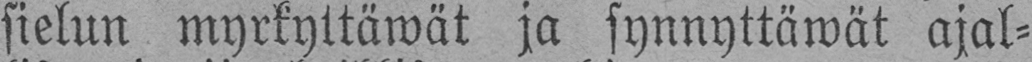sielun myrkyttäwät ja synnyttäwät ajal-
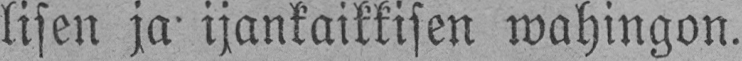lisen ja ijankaikkisen wahingon.
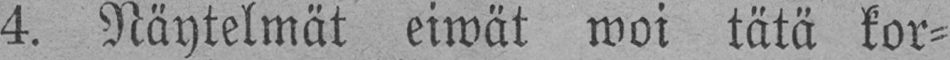4. Näytelmät eiwät woi tätä kor-
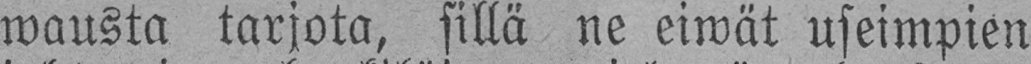wausta tarjota, sillä ne eiwät useimpien
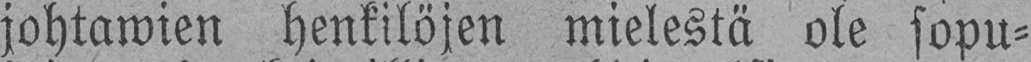johtawien henkilöjen mielestä ole sopu-
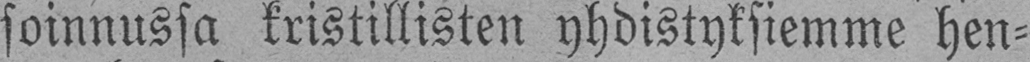soinnussa kristillisten yhdistyksemme hen-
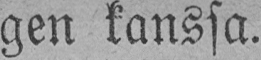gen kanssa.
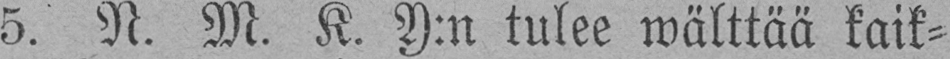5. N. M. K. Y:n tulee wälttää kaik-
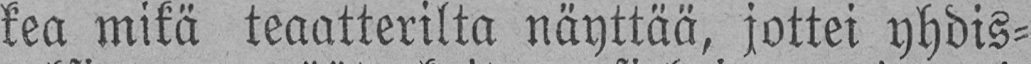kea mikä teaatterilta näyttää, jottei yhdis-
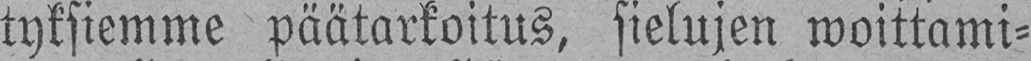tyksiemme päätarkoitus, sielujen woittami-
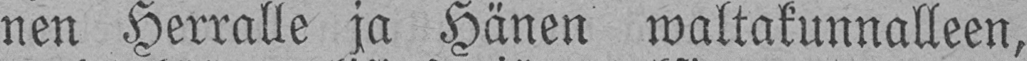nen Herralle ja Hänen waltakunnalleen,
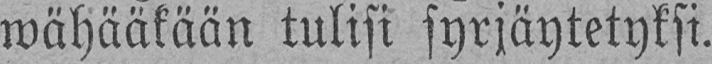wähääkään tulisi syrjäytetyksi.
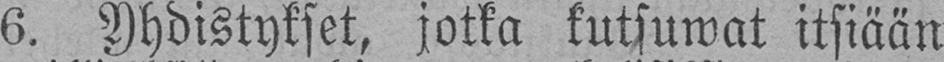6. Yhdistykset, jotka kutsuwat itsiään
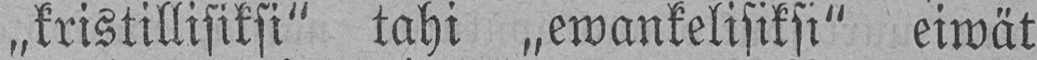˶kristillisiksi tahi „ewankelisiksi" eiwät
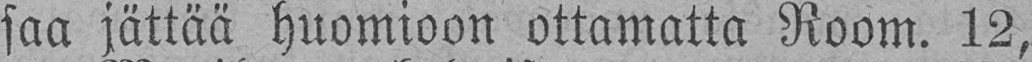saa jättää huomioon ottamatta Room. 12,
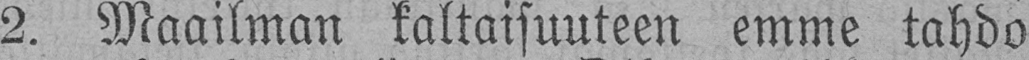2. Maailman kaltaisuuteen emme tahdo
